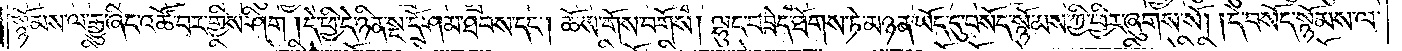སྙོམས་ལ་རྒྱུ་ཞིང་འཚོ་བར་གྱིས་ཤིག །དེ་ཕྱི་དེ་ཉིན་སྔ་དྲོ་ཤམ་ཐབས་དང༌། ཆོས་གོས་བགོས། ལྷུང་བཟེད་ཐོགས་ཏེ་མཉན་ཡོད་དུ་བསོད་སྙོམས་ཀྱི་ཕྱིར་ཞུགས་སོ། །དེ་བསོད་སྙོམས་ལ་
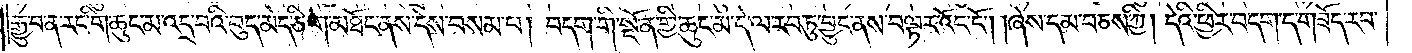རྒྱུ་བ་ན་རང་གི་ཆུང་མ་འདྲ་བའི་བུད་མེད་ཅིག་མཐོང་ནས་དེས་བསམ་པ། བདག་གི་སྔོན་གྱི་ཆུང་མ་དེ་ལ་རབ་ཏུ་བྱུང་ནས་བལྟར་འོང་ངོ༌། །ཞེས་དམ་བཅས་ཀྱི། དེའི་ཕྱིར་བདག་ད་གཟོད་རབ་
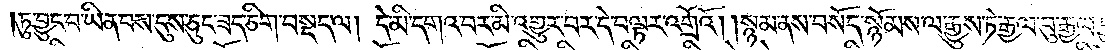ཏུ་བྱུང་བ་ཡིན་པས་དུས་ཅུང་ཟད་ཅིག་བསྡད་ལ། དེ་མི་དགའ་བར་མི་འགྱུར་བར་དེ་བལྟར་འགྲོའོ། །སྙམ་ནས་བསོད་སྙོམས་ལ་རྒྱུས་ཏེ་རྒྱལ་བུ་རྒྱལ་བྱེད་ཀྱི་
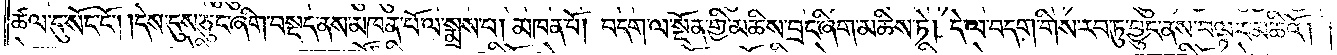ཚལ་དུ་སོང་ངོ༌། །དེས་དུས་ཅུང་ཞིག་བསྡད་ནས་མཁན་པོ་ལ་སྨྲས་པ། མཁན་པོ། བདག་ལ་སྔོན་གྱི་མཆིས་བྲང་ཞིག་མཆིས་ཏེ། དེ་ལ་བདག་གིས་རབ་ཏུ་བྱུང་ནས་བལྟར་མཆིའོ། །
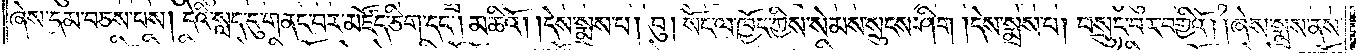ཞེས་དམ་བཅས་པས། དེའི་སླད་དུ་གནང་བར་མཛོད་ཅིག་དང༌། མཆིའོ། །དེས་སྨྲས་པ། བུ། སོང་ལ་ཁྱོད་ཀྱིས་སེམས་སྲུངས་ཤིག །དེས་སྨྲས་པ། བསྲུང་བར་བགྱིའོ། །ཞེས་སྨྲས་ནས་
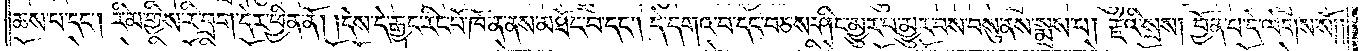ཆས་པ་དང༌། རིམ་གྱིས་རི་བྲག་དེར་ཕྱིན་ནོ། །དེས་དེ་རྒྱང་རིང་པོ་ཁོ་ན་ནས་མཐོང་བ་དང༌། དེ་དགའ་བ་དང་བཅས་ཤིང་མྱུར་བ་མྱུར་བས་བསུ་ནས་སྨྲས་པ། རྗེའི་སྲས། བྱོན་པ་དེ་ལེགས་སོ༎
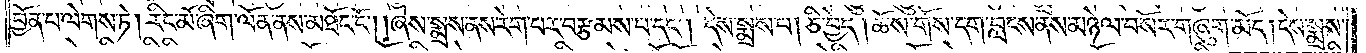བྱོན་པ་ལགས་ཏེ། རིང་མོ་ཞིག་ལོན་ནས་མཐོང་ངོ༌། །ཞེས་སྨྲས་ནས་རེག་པར་བརྩམས་པ་དང༌། དེས་སྨྲས་པ། ཅི་བྱེད། ཆོས་གོས་དག་བླངས་ནས་མཉེལ་བསོར་གཞུག་མོད། དེས་སྨྲས་
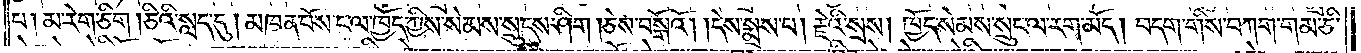པ། མ་རེག་ཅིག །ཅིའི་སླད་དུ། མཁན་པོས་ང་ལ་ཁྱོད་ཀྱིས་སེམས་སྲུངས་ཤིག །ཅེས་བསྒོའོ། །དེས་སྨྲས་པ། རྗེའི་སྲས། ཁྱོད་སེམས་སྲུང་ལ་རག་མོད། བདག་གིས་བཀག་གམ་ཅི་
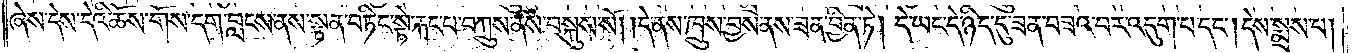ཞེས་དེས་དེའི་ཆོས་གོས་དག་བླངས་ནས་སྟན་བཏིང་སྟེ་རྐང་པ་བཀྲུས་ནས་བསྐུས་སོ། །དེ་ནས་ཁྲུས་བྱས་ནས་ཟན་བྱིན་ཏེ། དེ་ཡང་དེ་ཉིད་དུ་ཟན་བཟའ་བར་འདུག་པ་དང༌། དེས་སྨྲས་པ།
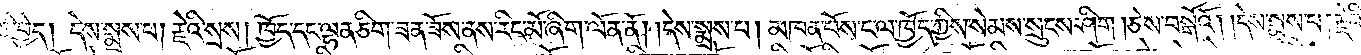ཅི་བྱེད། དེས་སྨྲས་པ། རྗེའི་སྲས། ཁྱོད་དང་ལྷན་ཅིག་ཟན་ཟོས་ནས་རིང་མོ་ཞིག་ལོན་ནོ། །དེས་སྨྲས་པ། མཁན་པོས་ང་ལ་ཁྱོད་ཀྱིས་སེམས་སྲུངས་ཤིག །ཅེས་བསྒོའོ། །དེས་སྨྲས་པ། རྗེའི་
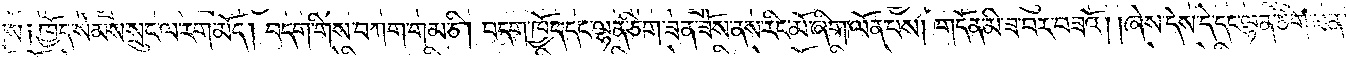སྲས། ཁྱོད་སེམས་སྲུང་ལ་རག་མོད། བདག་གིས་བཀག་གམ་ཅི། བདག་ཁྱོད་དང་ལྷན་ཅིག་ཟན་ཟོས་ནས་རིང་མོ་ཞིག་ལོན་པས། གདོན་མི་ཟ་བར་བཟའོ། །ཞེས་དེས་དེ་དང་ལྷན་ཅིག་ཟན་
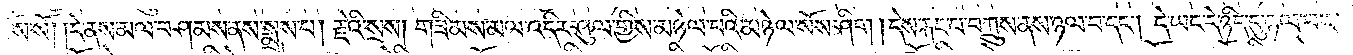ཟོས་སོ། །དེ་ནས་མལ་བཤམས་ནས་སྨྲས་པ། རྗེའི་སྲས། གཟིམས་མལ་འདིར་ཤུལ་གྱིས་མཉེལ་བའི་མཉེལ་སོས་ཤིག །དེས་རྐང་པ་བཀྲུས་ནས་ཉལ་བ་དང༌། དེ་ཡང་དེ་ཉིད་དུ་ཉལ་བར་
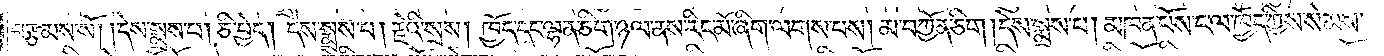བརྩམས་སོ། །དེས་སྨྲས་པ། ཅི་བྱེད། དེས་སྨྲས་པ། རྗེའི་སྲས། ཁྱོད་དང་ལྷན་ཅིག་ཉལ་ནས་རིང་མོ་ཞིག་ལགས་པས། མ་བཀྱོན་ཅིག །དེས་སྨྲས་པ། མཁན་པོས་ང་ལ་ཁྱོད་ཀྱིས་སེམས་
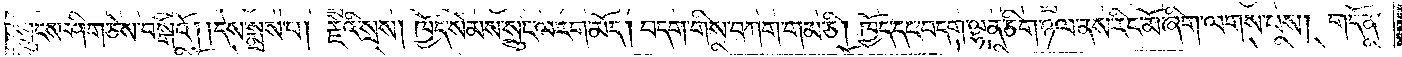སྲུངས་ཤིག་ཅེས་བསྒོའོ། །དེས་སྨྲས་པ། རྗེའི་སྲས། ཁྱོད་སེམས་སྲུང་ལ་རག་མོད། བདག་གིས་བཀག་གམ་ཅི། ཁྱོད་དང་བདག་ལྷན་ཅིག་ཉལ་ནས་རིང་མོ་ཞིག་ལགས་པས། གདོན་
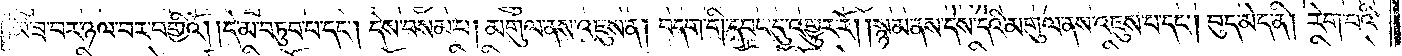མི་ཟ་བར་ཉལ་བར་བགྱིའོ། །དེ་མ་བཏུབ་པ་དང༌། དེས་བསམ་པ། མགུལ་ནས་འཇུས་ན། བདག་གི་དབང་དུ་འགྱུར་རོ། །སྙམ་ནས་དེས་དེའི་མགུལ་ནས་འཇུས་པ་དང༌། བུད་མེད་ནི། རེག་པའི་
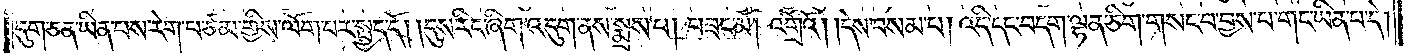དུག་ཅན་ཡིན་པས་རེག་པ་ཙམ་གྱིས་ལོག་པར་སྤྱད་དོ། །དུས་རིང་ཞིག་འདུག་ནས་སྨྲས་པ། བཟང་མོ། འགྲོའོ། །དེས་བསམ་པ། འདི་དང་བདག་ལྷན་ཅིག་གསང་བ་བྱས་པ་གང་ཡིན་པ་དེ་
